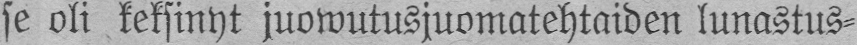se oli keksinyt juowutusjuomatehtaiden lunastus-
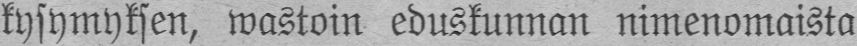kysymyksen, wastoin eduskunnan nimenomaista
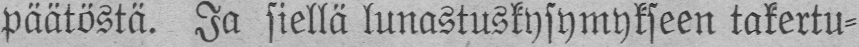päätöstä. Ja siellä lunastuskysymykseen takertu-
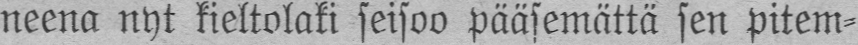neena nyt kieltolaki seisoo pääsemättä sen pitem-
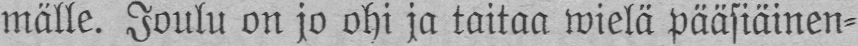mälle. Joulu on jo ohi ja taitaa wielä pääsiäinen-
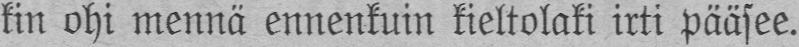kin ohi mennä ennenkuin kieltolaki irti pääsee.
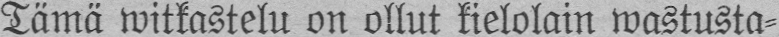Tämä witkastelu on ollut kielolain wastusta-
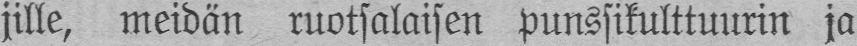jille, meidän ruotsalaisen punssikulttuurin ja
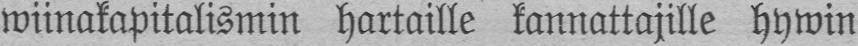wiinakapitalismin hartaille kannattajille hywin
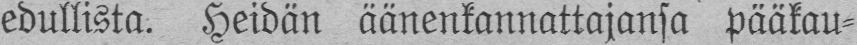edullista. Heidän äänenkannattajansa pääkau-
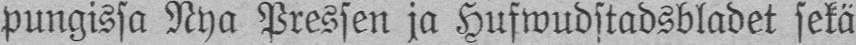pungissa Nya Pressen ja Hufwudstadsbladet sekä
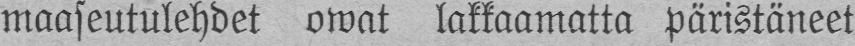maaseutulehdet owat lakkaamatta päristäneet
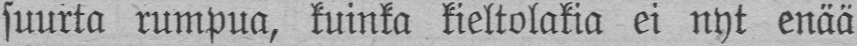suurta rumpua, kuinka kieltolakia ei nyt enää
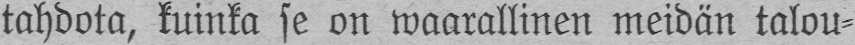tahdota, kuinka se on waarallinen meidän talou-
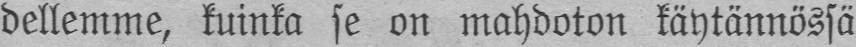dellemme, kuinka se on mahdoton käytännössä
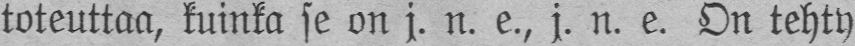toteuttaa, kuinka se on j. n. e., j. n. e. On tehty
